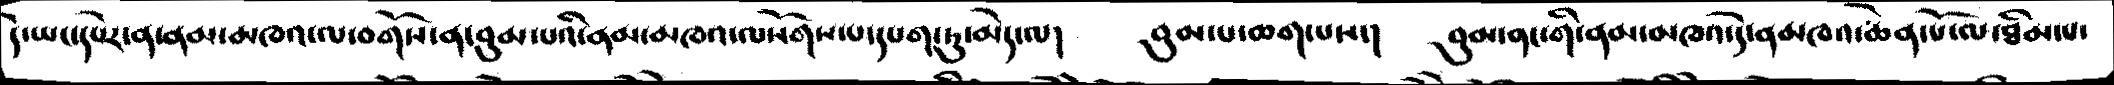དེ་ཡང་དཔེར་ན་ནམ་མཁའ་ལ་བགོས་ན་བུམ་པའི་ནམ་མཁའ་ལསོགས་པ་དཔག་ཏུ་མེད་ལ།   བུམ་པ་ཆག་པས་།   བུམ་ནང་གི་ནམ་མཁའ་དེ་ནམ་མཁའ་ཆེན་པོ་ལ་ཐིམ་པ་
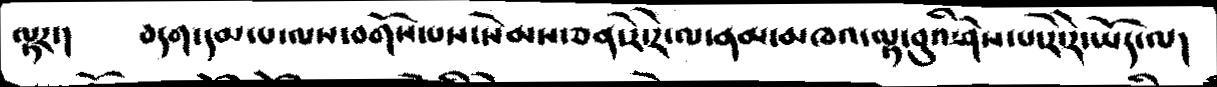ལྟར་།   བདག་དམ་པ་ལས་བགོས་པས་སེམས་ཅན་རེ་རེ་ལ་ནམ་མཁའ་ལྟ་བུའི་ཤེས་པ་རེ་རེ་ཡོད་ལ།
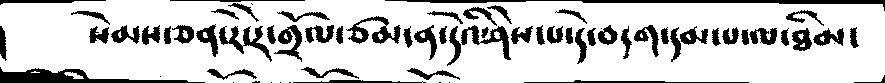སེམས་ཅན་རེ་རེ་གྲོལ་ཙམ་ན་དེའི་ཤེས་པ་དེ་བདག་དམ་པ་ལ་ཐིམ་
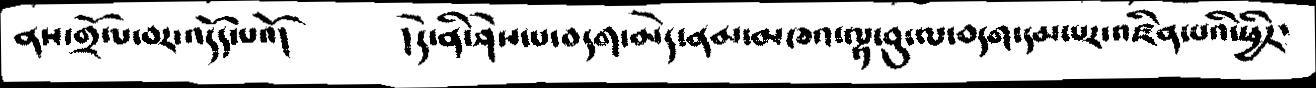ནས་གྲོལ་བར་འདོད་པའོ།   །དེ་ནི་ཤེས་པ་བདག་མེད་ནམ་མཁའ་ལྟ་བུ་ལ་བདག་དམ་པར་འཛིན་པའི་ཕྱིར་
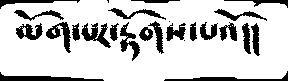ལོག་པར་རྟོགས་པའོ།།
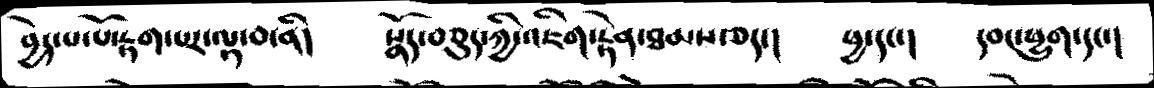བྱེད་པ་པོ་རྟག་པར་ལྟ་བ་ནི།   སྣོད་བཅུད་ཀྱི་འཇིག་རྟེན་ཐམས་ཅད་།   ཕྱ་དང་།   དབང་ཕྱུག་དང་།
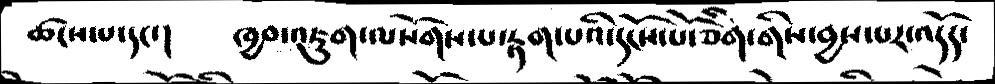ཚངས་པ་དང་།   ཁྱབ་འཇུག་ལསོགས་པ་རྟག་པའི་དངོས་པོ་ཅིག་གིས་བྱས་པར་འདོད་
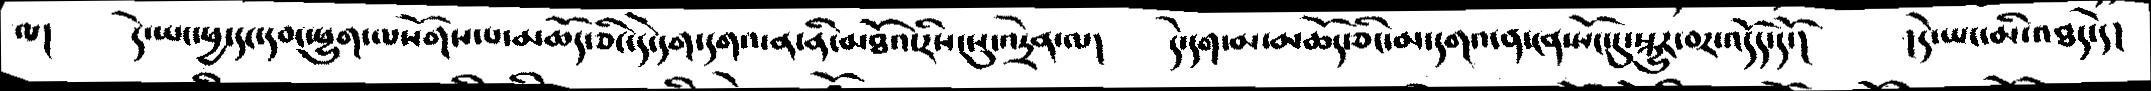ལ།   དེ་ཡང་ཕྱ་དང་དབང་ཕྱུག་ལསོགས་པ་མཆོད་ཅིང་དེ་དག་དགའ་ན་ནི་མཐོའ་རིས་སུ་འདྲེན་ལ།   དེ་དག་མ་མཆོད་ཅིང་མ་དགའ་ན་ངན་སོང་དུ་སྐྱུར་བར་འདོད་དོ།   །དེ་ཡང་མི་འཐད་དེ།
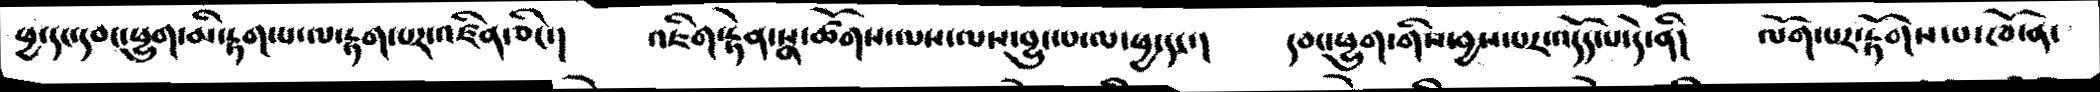ཕྱ་དང་དབང་ཕྱུག་མི་རྟག་པ་ལ་རྟག་པར་འཛིན་ཅིང་།   འཇིག་རྟེན་སྣ་ཚོགས་ལས་ལས་བྱུང་པ་ལ་ཕྱ་དང་།   དབང་ཕྱུག་གིས་བྱས་པར་འདོད་པ་དེ་ནི།   ལོག་པར་རྟོགས་པ་ཁོ་ན་
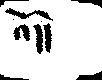འདོད
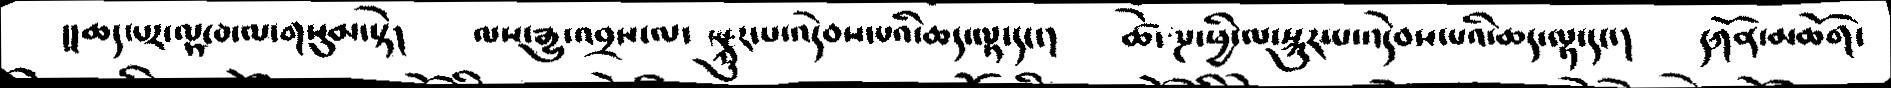།།ཆད་པར་ལྟ་བ་ལ་གསུམ་སྟེ།   ལས་རྒྱུ་འབྲས་ལ་   སྐུར་པ་འདེབས་པའི་ཆད་ལྟ་དང་།   ཚེ་སྔ་ཕྱི་ལ་སྐུར་པ་འདེབས་པའི་ཆད་ལྟ་དང་།   དཀོན་མཆོག་
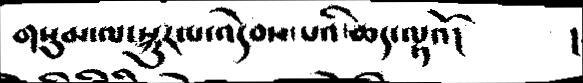གསུམ་ལ་སྐུར་པ་འདེབས་པའི་ཆད་ལྟའོ།  །
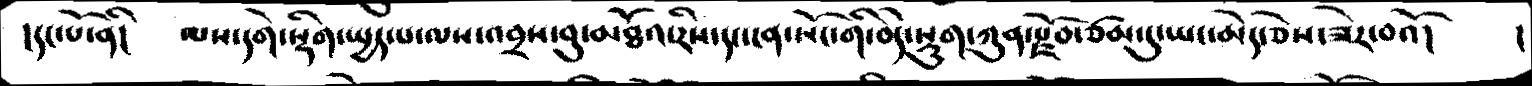།དང་པོ་ནི།   ལས་དགེ་སྡིག་སྤྱད་པ་ལས་འབྲས་བུ་མཐོའ་རིས་དང་ངན་སོང་གི་བདེ་སྡུག་ཀུན་རྫོབ་ཙམ་དུ་ཡང་མེད་ཅེས་ཟེར་བའོ།   །
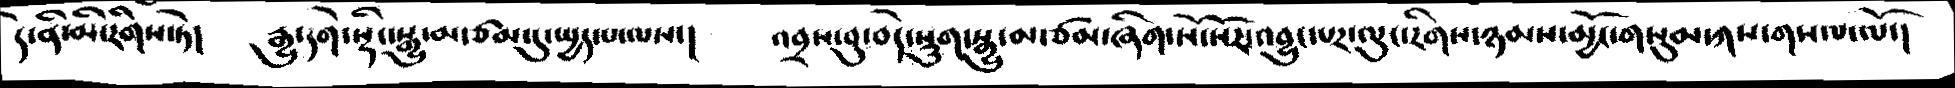དེ་ནི་མི་རིགས་ཏེ།   རྒྱུ་དགེ་སྡིང་སྒྱུ་མ་ཙམ་སྤྱད་པ་ལས་།    འབྲས་བུ་བདེ་སྡུག་སྒྱུ་མ་ཙམ་ཞིག་སོ་སོར་འབྱུང་པར་ལུང་རིགས་ཉམས་མྱོང་གསུམ་ཀས་གསལ་ལོ་།
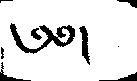༄༅།
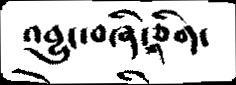འབྱུང་བཞི་གཅིག་
